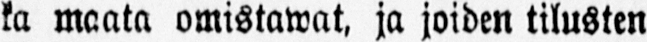ka maata omistamat, ja joiden tilusten
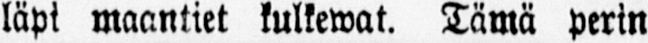läpi maantiet kulkemat. Tämä perin
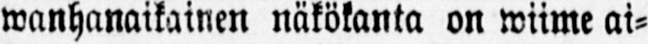wanhanaikainen näkökanta on wiime ai-
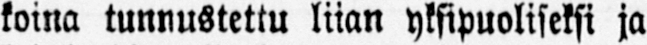koina tunnustettu liian yksipuoliseksi ja
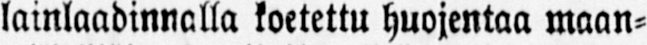lainlaadinnalla koetettu huojentaa maan-
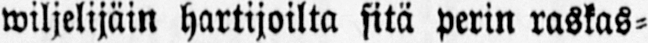wiljelijäin hartijoilta sitä perin raskas-
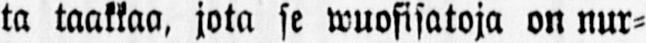ta taakkaa, jota se wuosisatoja on nur-
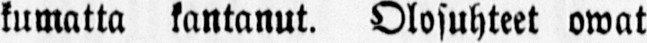kumatta kantanut. Olosuhteet owat
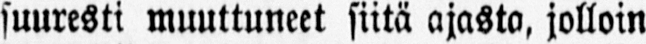suuresti muuttuneet siitä ajasta, jolloin
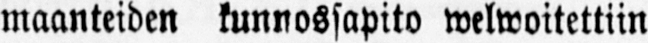maanteiden kunnossapito welwoitettiin
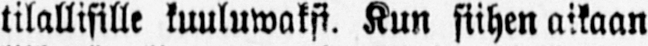tilallisille kuuluwaksi. Kun siihen aikaan
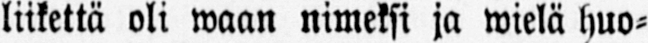liikettä oli waan nimeksi ja wielä huo-
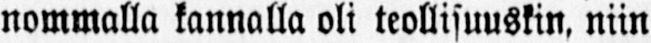nommalla kannalla oli teollisuuskin, niin
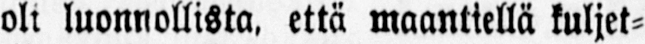oli luonnollista, että maantiellä kuljet-
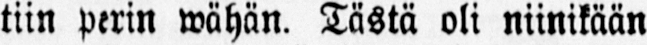tiin perin wähän. Tästä oli niinikään
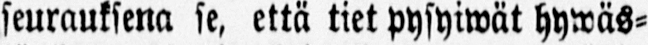seurauksena se, että tiet pysyiwät hywäs-
